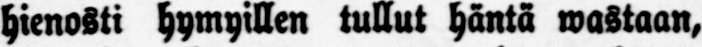hienosti hymyillen tullut häntä wastaan,
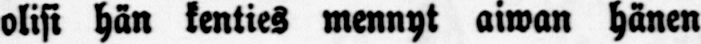olisi hän kenties mennyt aiwan hänen
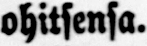ohitsensa.
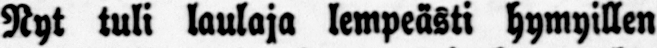Nyt tuli laulaja lempeästi hymyillen
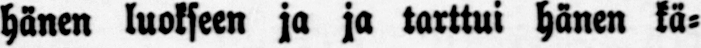hänen luokseen ja ja tarttui hänen kä-
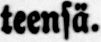teensä.
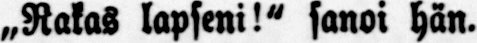„Rakas lapseni!" sanoi hän.
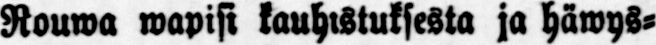Rouwa wapisi kauhistuksesta ja häwys-
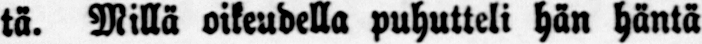tä. Millä oikeudella puhutteli hän häntä
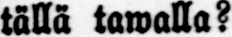tällä tawalla?
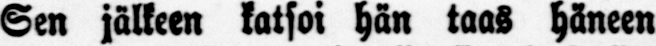Sen jälkeen katsoi hän taas häneen
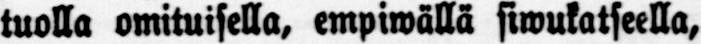tuolla omituisella, empiwällä siwukatseella,
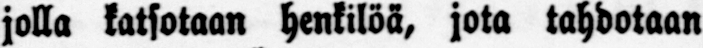jolla katsotaan henkilöä, jota tahdotaan
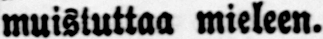muistuttaa mieleen.
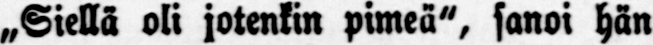„Siellä oli jotenkin pimeä", sanoi hän
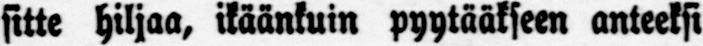sitte hiljaa, ikäänkuin pyytääkseen anteeksi
